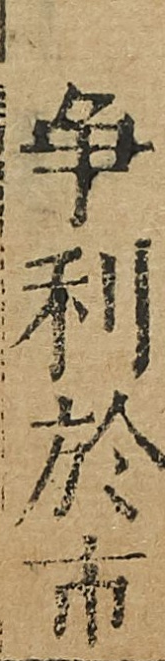爭利於市
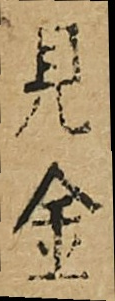見金
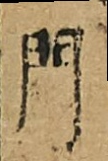門
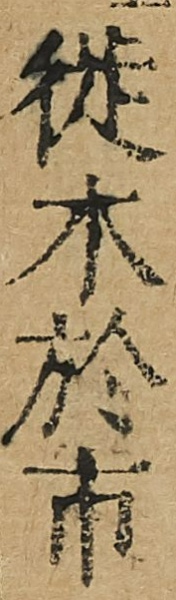徙木於市
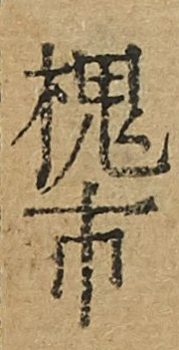槐市
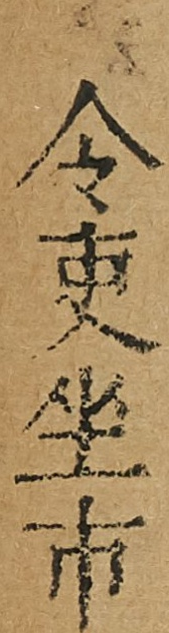令吏坐市
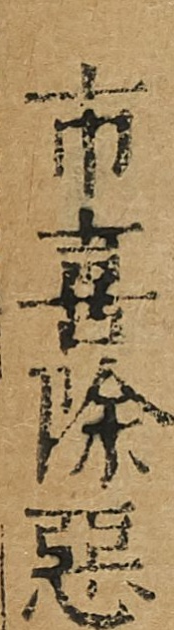市喜除惡
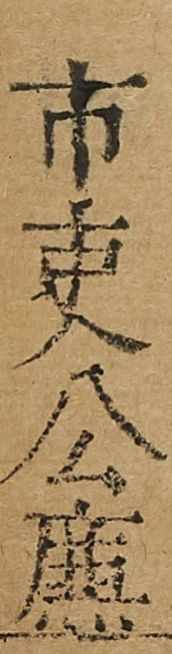市吏公亷
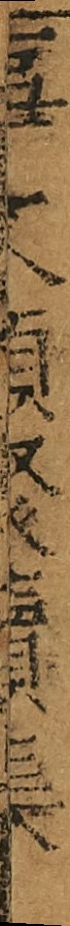事文類聚續集
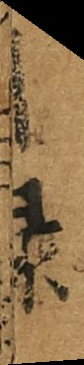目錄
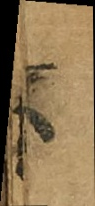六
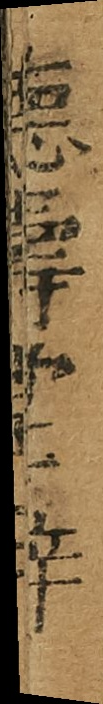德壽堂梓
